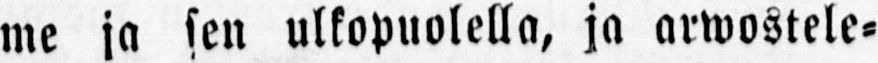me ja sen ulkopuolella, ja arwostele-
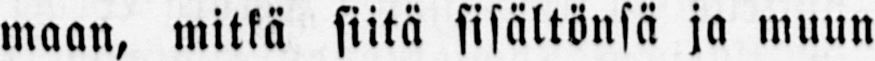maan, mitkä siitä sisältönsä ja muun
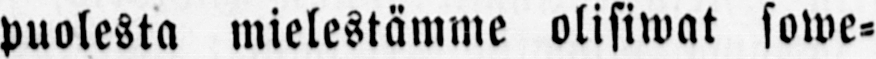puolesta mielestämme olisiwat sowe-
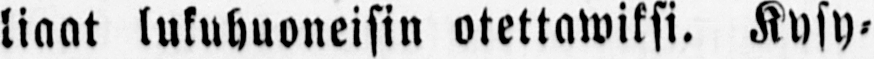liaat lukuhuoneisin otettawiksi. Kysy-
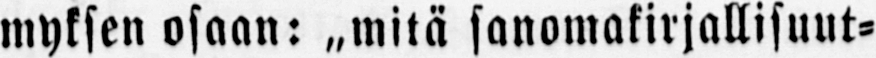myksen osaan: „mitä sanomakirjallisuut-
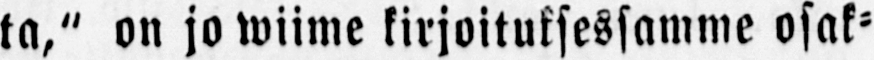ta," on jo wiime kirjoituksessamme osak-
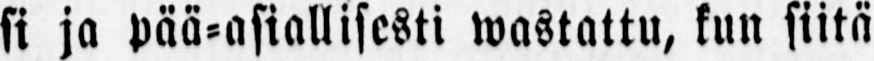si ja pää-asiallisesti wastattu, kun siitä
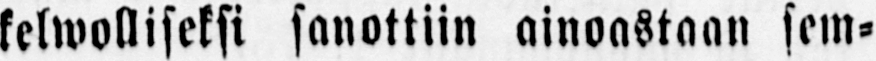kelwolliseksi sanottiin ainoastaan sem-
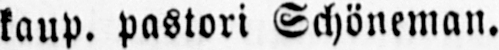kaup. pastori Schöneman.
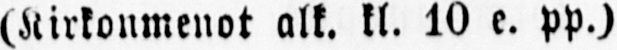(Kirkonmenot alk. kl. 10 e. pp.)
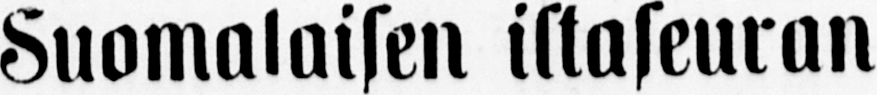Suomalaisen iltaseuran
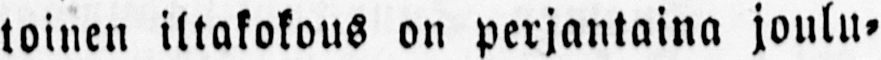toinen iltakokous on perjantaina joulu-
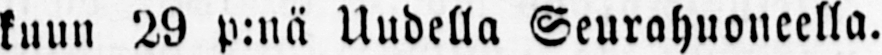kuun 29 p:nä Uudella Seurahuoneella.
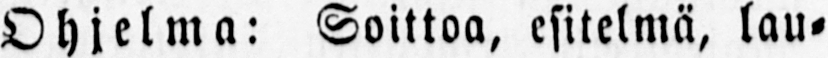Ohjelma: Soittoa, esitelmä, lau-
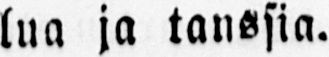lua ja tanssia.
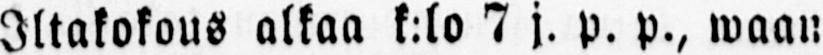Iltakokous alkaa k:lo 7 j. p. p., waan
